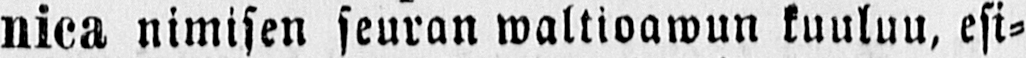nica nimisen seuran waltioawun kuuluu, esi-
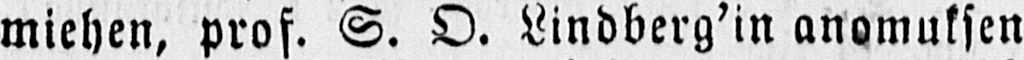miehen, prof. S. O. Lindberg’in anomuksen
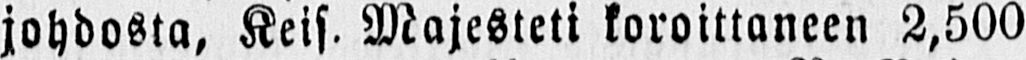johdosta, Keis. Majesteti koroittaneen 2,500
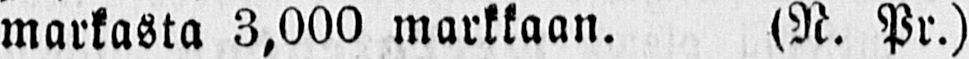markasta 3,000 markkaan. (N. Pr.)
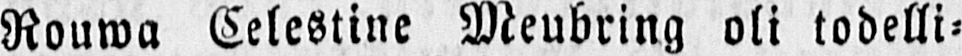Rouwa Celestine Meubring oli todelli-
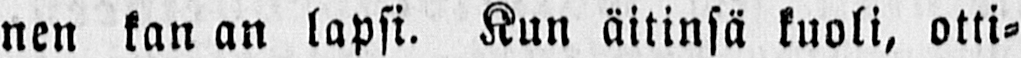nen kan an lapsi. Kun äitinsä kuoli, otti-
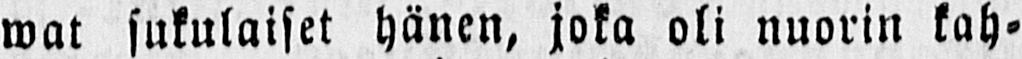wat sukulaiset hänen, joka oli nuorin kah-
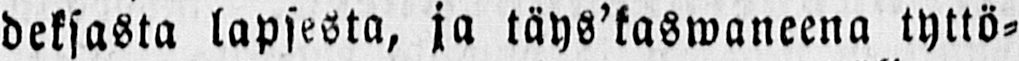deksasta lapsesta, ja täys’kaswaneena tyttö-
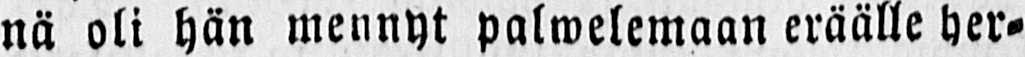nä oli hän mennyt palwelemaan eräälle her-
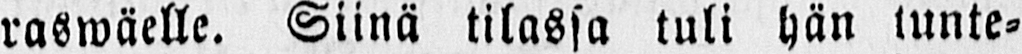raswäelle. Siinä tilassa tuli hän tunte-
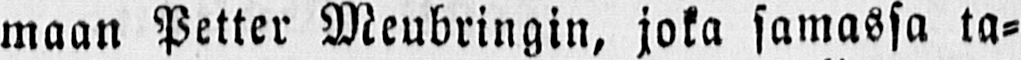maan Petter Meubringin, joka samassa ta-
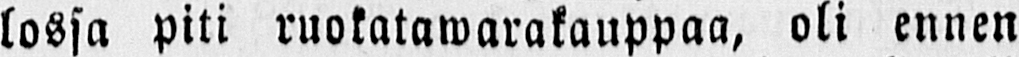lossa piti ruokatawarakauppaa, oli ennen
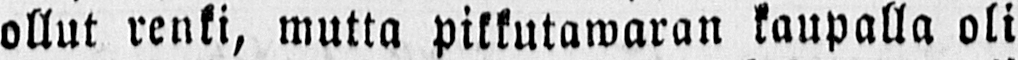ollut renki, mutta pikkutawaran kaupalla oli
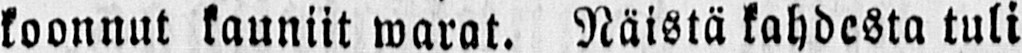koonnut kauniit warat. Näistä kahdesta tuli
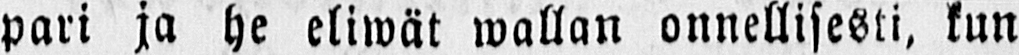pari ja he eliwät wallan onnellisesti, kun
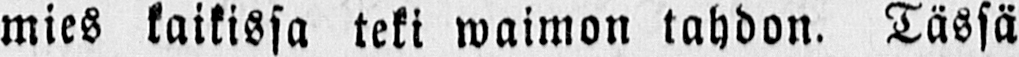mies kaikissa teki waimon tahdon. Tässä
